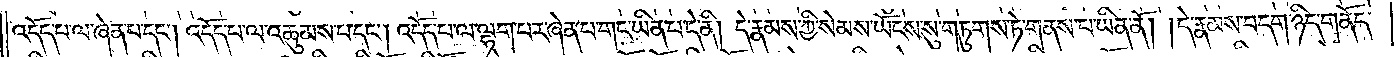འདོད་པ་ལ་ཞེན་པ་དང༌། འདོད་པ་ལ་འཆུམས་པ་དང༌། འདོད་པ་ལ་ལྷག་པར་ཞེན་བ་གང་ཡིན་པ་དེ་ནི། དེ་རྣམས་ཀྱི་སེམས་ཡོངས་སུ་གཏུགས་ཏེ་གནས་པ་ཡིན་ནོ། །དེ་རྣམས་བདག་ཉིད་གནོད་
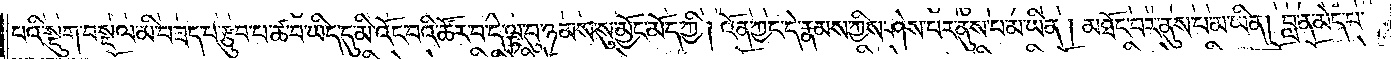པའི་སྡུག་བསྔལ་མི་བཟད་པ་རྩུབ་པ་ཚ་བ་ཡིད་དུ་མི་འོང་བའི་ཚོར་བ་དེ་ལྟ་བུ་ཉམས་སུ་མྱོང་མོད་ཀྱི། འོན་ཀྱང་དེ་རྣམས་ཀྱིས་ཤེས་པར་ནུས་པ་མ་ཡིན། མཐོང་བར་ནུས་པ་མ་ཡིན། བླ་ན་མེད་པ་
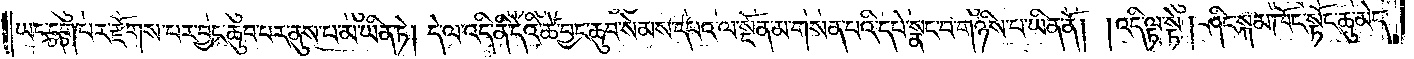ཡང་དག་པར་རྫོགས་པར་བྱང་ཆུབ་པར་ནུས་པ་མ་ཡིན་ཏེ། དེ་ལ་འདི་ནི་དེའི་ཚེ་བྱང་ཆུབ་སེམས་དཔའ་ལ་སྔོན་མ་གསན་པའི་དཔེ་སྣང་བ་གཉིས་པ་ཡིན་ནོ། །འདི་ལྟ་སྟེ། ཤིང་སྐམ་ཁོང་སྟོང་ཆུ་མེད་
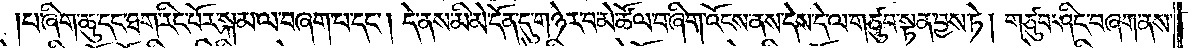པ་ཞིག་ཆུ་དང་ཐག་རིང་པོར་སྐམ་ལ་བཞག་པ་དང༌། དེ་ནས་མི་མེ་དོན་དུ་གཉེར་བ་མེ་ཚོལ་བ་ཞིག་འོངས་ནས་དེས་དེ་ལ་གཙུབ་སྟན་བྱས་ཏེ། གཙུབ་ཤིང་བཞག་ནས་
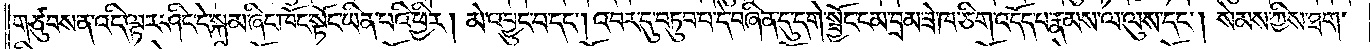གཙུབས་ན་འདི་ལྟར་ཤིང་དེ་སྐམ་ཞིང་ཁོང་སྟོང་ཡིན་པའི་ཕྱིར། མེ་འབྱུང་བ་དང༌། འབར་དུ་བཏུབ་པ་དེ་བཞིན་དུ་དགེ་སྦྱོང་ངམ་བྲམ་ཟེ་ཁ་ཅིག་འདོད་པ་རྣམས་ལ་ལུས་དང༌། སེམས་ཀྱིས་ཐག་
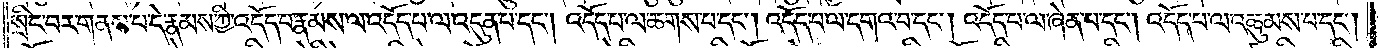སྲིང་བར་གནས་པ་དེ་རྣམས་ཀྱི་འདོད་པ་རྣམས་ལ་འདོད་པ་ལ་འདུན་པ་དང༌། འདོད་པ་ལ་ཆགས་པ་དང༌། འདོད་པ་ལ་དགའ་བ་དང༌། འདོད་པ་ལ་ཞེན་པ་དང༌། འདོད་པ་ལ་འཆུམས་པ་དང༌།
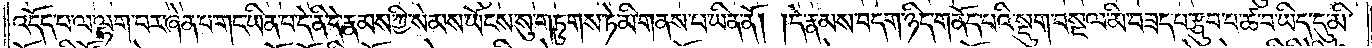འདོད་པ་ལ་ལྷག་པར་ཞེན་པ་གང་ཡིན་པ་དེ་ནི་དེ་རྣམས་ཀྱི་སེམས་ཡོངས་སུ་གཏུགས་ཏེ་མི་གནས་པ་ཡིན་ནོ། །དེ་རྣམས་བདག་ཉིད་གནོད་པའི་སྡུག་བསྔལ་མི་བཟད་བ་རྩུབ་པ་ཚ་བ་ཡིད་དུ་མི་
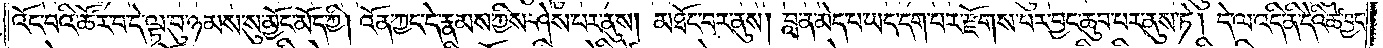འོང་བའི་ཚོར་བ་དེ་ལྟ་བུ་ཉམས་སུ་མྱོང་མོད་ཀྱི། འོན་ཀྱང་དེ་རྣམས་ཀྱིས་ཤེས་པར་ནུས། མཐོང་བར་ནུས། བླ་ན་མེད་པ་ཡང་དག་པར་རྫོགས་པར་བྱང་ཆུབ་པར་ནུས་ཏེ། དེ་ལ་འདི་ནི་དེའི་ཚེ་བྱང་
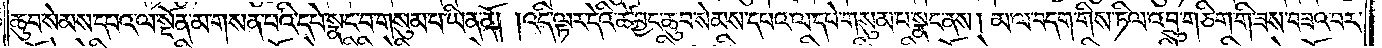ཆུབ་སེམས་དཔའ་ལ་སྔོན་མ་གསན་པའི་དཔེ་སྣང་བ་གསུམ་པ་ཡིན་ནོ། །འདི་ལྟར་དེའི་ཚེ་བྱང་ཆུབ་སེམས་དཔའ་ལ་དཔེ་གསུམ་པ་སྣང་ནས། མ་ལ་བདག་གིས་ཏིལ་འབྲུ་གཅིག་གི་ཟས་བཟའ་བར་
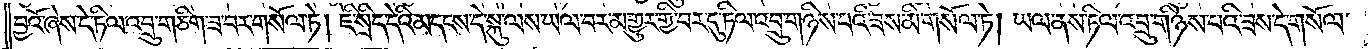བྱའོ་ཞེས་དེ་ཏིལ་འབྲུ་གཅིག་ཟ་བར་གསོལ་ཏེ། ཇི་སྲིད་དེའི་མདངས་དེ་སྐུ་ལས་ཡལ་བར་མ་གྱུར་གྱི་བར་དུ་ཏིལ་འབྲུ་གཉིས་པའི་ཟས་མི་གསོལ་ཏེ། ཡལ་ནས་ཏིལ་འབྲུ་གཉིས་པའི་ཟས་དེ་གསོལ་
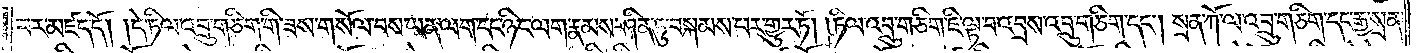བར་མཛད་དོ། །དེ་ཏིལ་འབྲུ་གཅིག་གི་ཟས་གསོལ་བས་ཡན་ལག་དང་ཉིང་ལག་རྣམས་ཤིན་ཏུ་བསྐམས་པར་གྱུར་ཏོ། །ཏིལ་འབྲུ་གཅིག་ཇི་ལྟ་བ་འབྲས་འབྲུ་གཅིག་དང༌། སྲན་ཀོ་ལ་འབྲུ་གཅིག་དང་རྒྱ་སྲན་
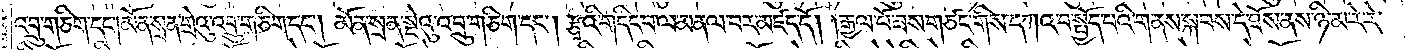འབྲུ་གཅིག་དང༌། མོན་སྲན་གྲེའུ་འབྲུ་གཅིག་དང༌། མོན་སྲན་སྡེའུ་འབྲུ་གཅིག་དང༌། རྩྭའི་གདིང་བ་ལ་མནལ་བར་མཛད་དོ། །རྒྱལ་པོ་ཟས་གཙང་གིས་དཀའ་བ་སྤྱོད་པའི་གནས་སྐབས་དེ་ཐོས་ནས་ཉི་མ་རེ་རེ་
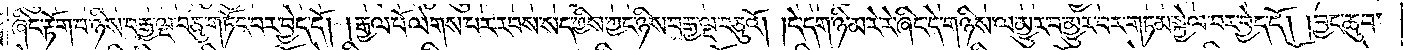ཞིང་རྟོག་པ་ཉིས་བརྒྱ་ལྔ་བཅུ་གཏོང་བར་བྱེད་དོ། །རྒྱལ་པོ་ལེགས་པར་རབས་སད་ཀྱིས་ཀྱང་ཉིས་བརྒྱ་ལྔ་བཅུའོ། །དེ་དག་ཉི་མ་རེ་རེ་ཞིང་དེ་གཉིས་ལ་མྱུར་བ་མྱུར་བར་གཏམ་སྐྱེལ་བར་བྱེད་དོ། །བྱང་ཆུབ་
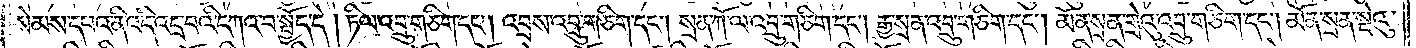སེམས་དཔའ་ནི་འདི་འདྲ་བའི་དཀའ་བ་སྤྱོད་དེ། ཏིལ་འབྲུ་གཅིག་དང༌། འབྲས་འབྲུ་གཅིག་དང༌། སྲན་ཀོ་ལ་འབྲུ་གཅིག་དང༌། རྒྱ་སྲན་འབྲུ་གཅིག་དང༌། མོན་སྲན་གྲེའུ་འབྲུ་གཅིག་དང༌། མོན་སྲན་སྡེའུ་
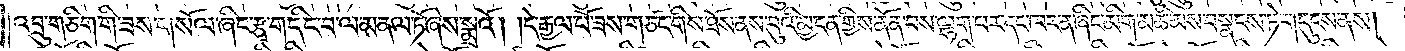འབྲུ་གཅིག་གི་ཟས་གསོལ་ཞིང་རྩྭ་གདིང་བ་ལ་མནལ་ཏོ་ཞེས་སྨྲའོ། །དེ་རྒྱལ་པོ་ཟས་གཙང་གིས་ཐོས་ནས་བུའི་མྱ་ངན་གྱིས་ནོན་པས་ལྷག་པར་དང་ཁར་ན་ཞིང་མིག་མཆིག་མས་བསྣངས་ཏེ་གདུངས་ནས།
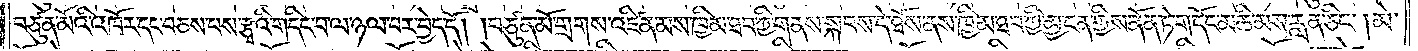བཙུན་མོའི་འཁོར་དང་བཅས་པས་རྩྭའི་གདིང་བ་ལ་ཉལ་བར་བྱེད་དོ། །བཙུན་མོ་གྲགས་འཛིན་མས་ཁྱིམ་ཐབ་ཀྱི་གནས་སྐབས་དེ་ཐོས་ནས་ཁྱིམ་ཐབ་ཀྱི་མྱ་ངན་གྱི་ནོན་ཏེ་གདོང་མཆི་མས་རླན་ཅིང༌། མེ་
